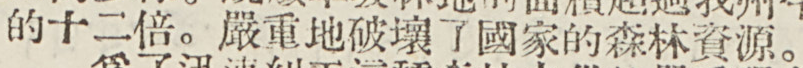的十二倍。嚴重地破壞了國家的森林資源。
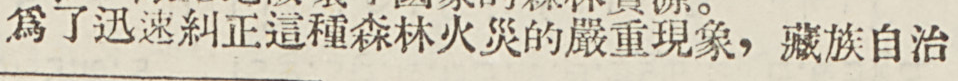爲了迅速糾正這種森林火災的嚴重現象，藏族自治
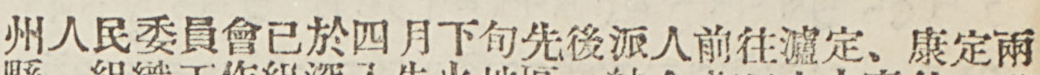州人民委員會已於四月下旬先後派人前往瀘定、康定兩
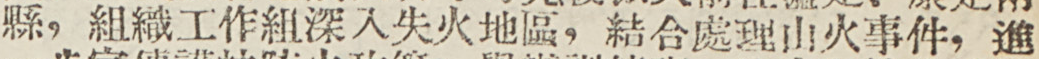縣，組織工作組深入失火地區，結合處理山火事件，進
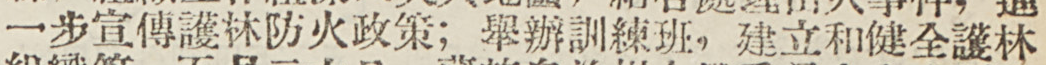一步宣傳護林防火政策；舉辦訓練班，建立和健全護林
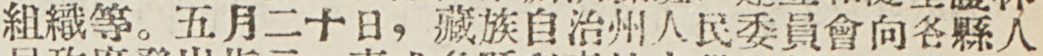組織等。五月二十日，藏族自治州人民委員會向各縣人
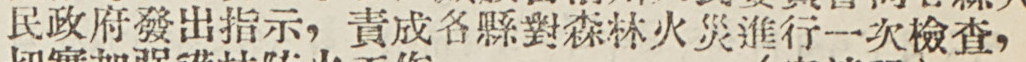民政府發出指示，責成各縣對森林火災進行一次檢查，
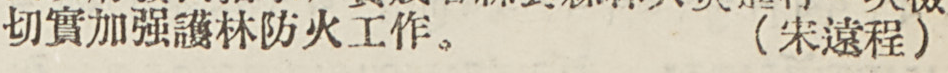切實加強護林防火工作。 （宋遠程）
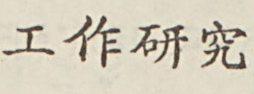工作研究
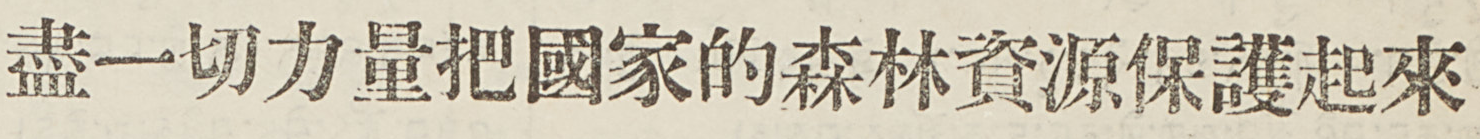盡一切力量把國家的森林資源保護起來
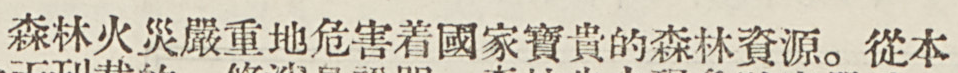森林火災嚴重地危害着國家寶貴的森林資源。從本
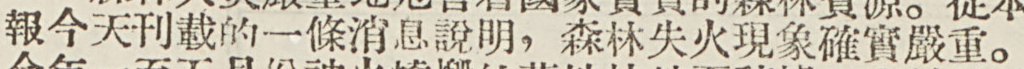報今天刊載的一條消息說明，森林失火現象確實嚴重。
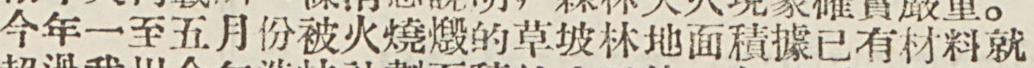今年一至五月份被火燒燬的草坡林地面積據已有材料就
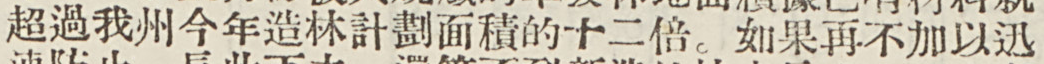超過我州今年造林計劃面積的十二倍。如果再不加以迅
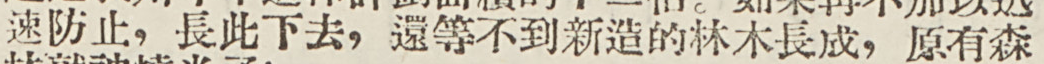速防止，長此下去，還等不到新造的林木長成，原有森
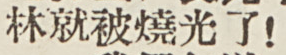林就被燒光了！
